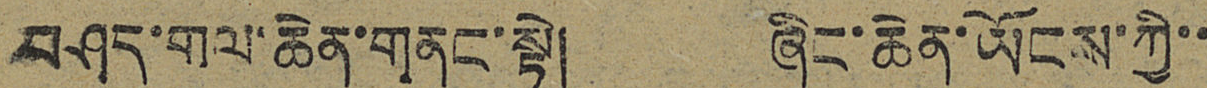བཤད་གལ་ཆེན་གནང་སྟེ། ཞིང་ཆེན་ཡོངས་ཀྱི་་
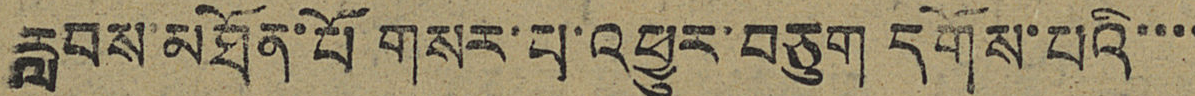རླབས་མཐོན་པོ གསར་པ་འཕྱུར་བཅུག དགོས་པའི་་་་
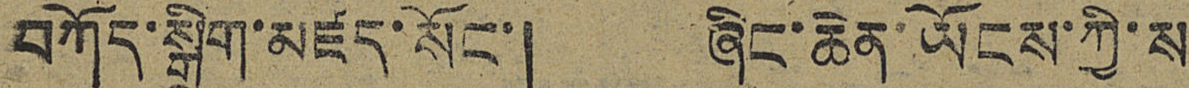བཀོད་སྒྲིག་མཛད་སོང་། ཞིང་ཆེན་ཡོངས་ཀྱི་ས་
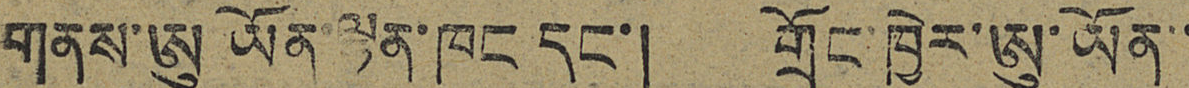གནས་ཨུ ཡོན་ལྷན་ཁང དང་། གྲོང་ཁྱེར་ཨུ་ཡོན་་
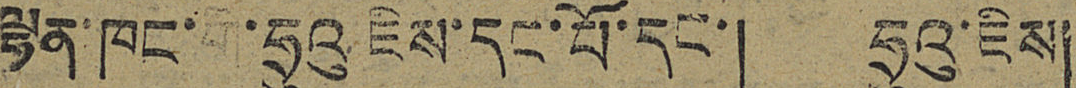ལྷང་ཁང་གི་ཧྲུའུ ཇིས་དང་པོ་དང་། ཧྲུའུ་ཇིས།
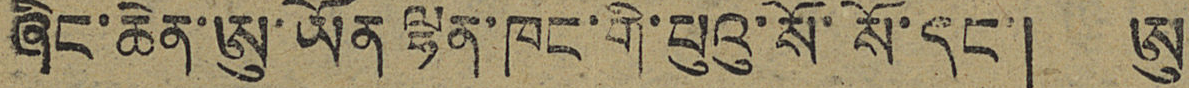ཞིང་ཆེན་ཨུ་ཡོན ལྷན་ཁང་གི་པུའུ་སོ་སོ་དང་། ཨུ་
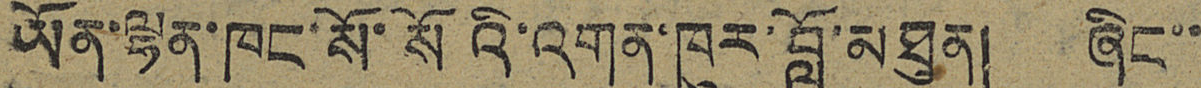ཡོན་ལྷན་ཁང་སོ་སོའི་འགན་ཁུར་བློ་མཐུན། ཞིང་་
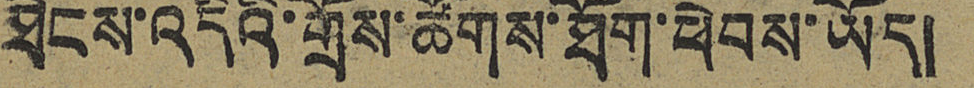ཐེངས་འདིའི་གྲོས་ཚོགས་ཐོག་ཕེབས་ཡོད།
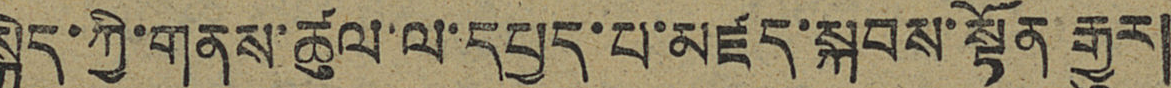སྐྱེད་ཀྱི་གནས་ཚུལ་ལ་དཔྱད་པ་མཛད་སྐབས་སྟོན་རྒྱུར།
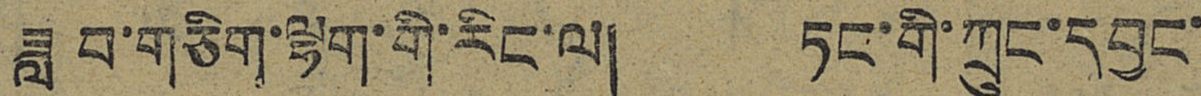ཟླ བ་གཅིག་ལྷག་གི་རིང་ལ། ཏང་གི་ཀྲུང་དབྱང་
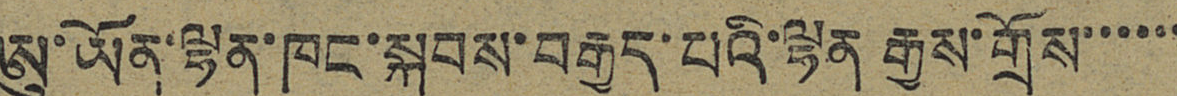ཨུ་ཡོན་ལྷན་ཁང་སྐབས་བརྒྱད་པའི་ལྷན རྒྱས་གྲོས་་་་་་
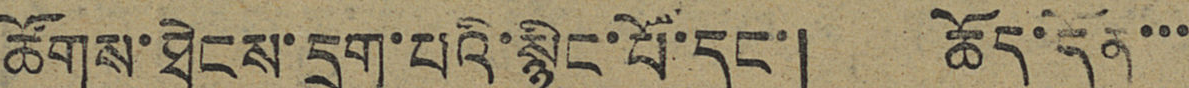ཚོགས་ཐེངས་དྲུག་པའི་སྙིང་པོ་དང་། ཆོད་དོན་་་
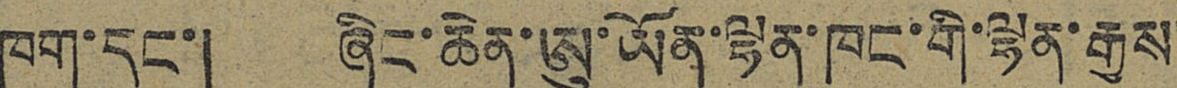ཁག་དང་། ཞིང་ཆེན་ཨུ་ཡོན་ལྷན་ཁང་གི་ལྷན་རྒྱས་
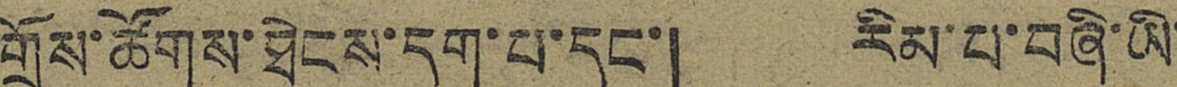གྲོས་ཚོགས་ཐེངས་དགུ་པ་དང་། རིམ་པ་བཞི་ཡི་
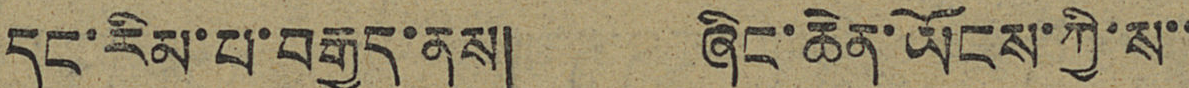དང་རིམ་པ་བརྒྱུད་ནས། ཞིང་ཆེན་ཡོངས་ཀྱི་ས་་
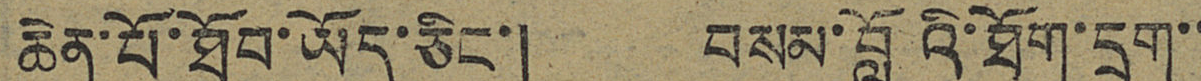ཆེན་པོ་ཐོབ་ཡོད་ཅིང་། བསམ་བློའི་ཐོག་དྲག་་
